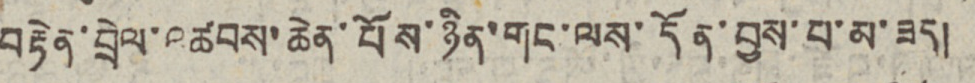བརྟེན་བྲེལ་འཚབས་ཆེན་པོས་ཉིན་གང་ལས་དོན་བྱས་པ་མ་ཟད།
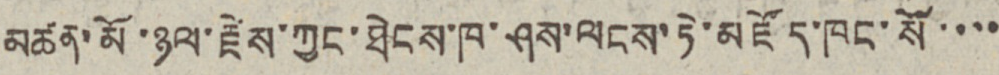མཚན་མོ་ཉལ་རྫེས་ཀྱང་ཐེངས་ཁ་ཤས་ལངས་ཏེ་མཛོད་ཁང་སོ་་་་
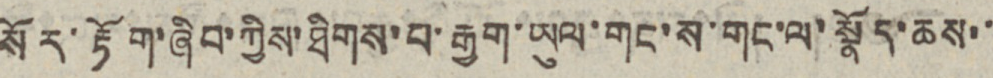སོར་རྟོག་ཞིབ་ཀྱིས་ཐིགས་བ་རྒྱག་ཡུལ་གང་ས་གང་ལ་སྣོད་ཆས་་
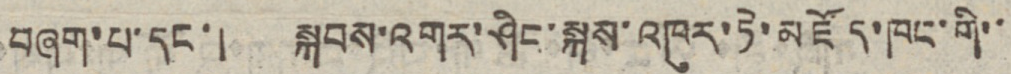བཞག་པ་དང་། སྐབས་འགར་ཤིང་སྐས་འཁུར་ཏེ་མཛོད་ཁང་གི་་
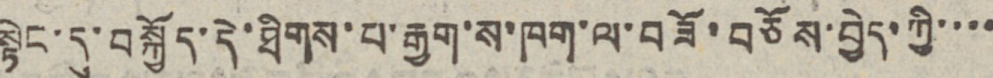སྟེང་དུ་བསྐྱོད་དེ་ཐིགས་པ་རྒྱག་ས་ཁག་ལ་བཟོ་བཅོས་བྱེད་ཀྱི་་་་
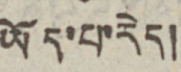ཡོད་པ་རེད།
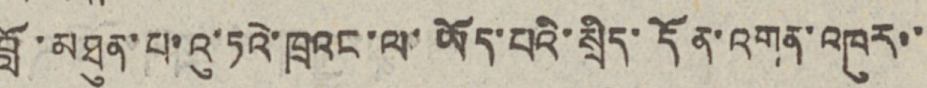བློ་མཐུན་པ་འུ་ཏའེ་ཁྲའང་ལ་ཡོད་པའི་སྲིད་དོན་འགན་འཁུར་་
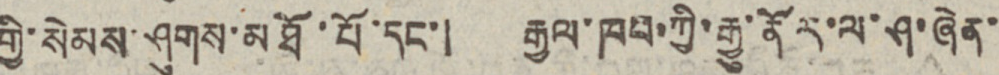གྱི་སེམས་ཤུགས་མཐོ་པོ་དང་། རྒྱལ་ཁབ་ཀྱི་རྒྱུ་ནོར་ལ་ཤ་ཞེན་
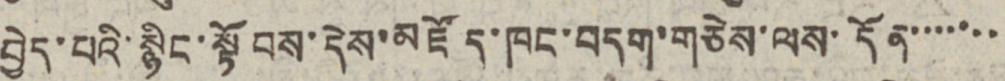བྱེད་པའི་སྙིང་སྟོབས་དེས་མཛོད་ཁང་བདག་གཅེས་ལས་དོན་་་་་་་
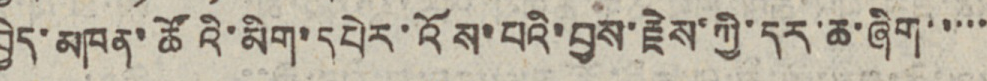བྱེད་མཁན་ཚོའི་མིག་དཔེར་འོས་པའི་བྱས་རྗེས་ཀྱི་དར་ཆ་ཞིག་་་་་
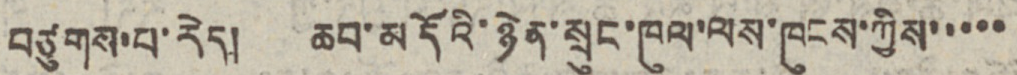བཙུགས་པ་རེད། ཆབ་མདོའི་ཉེན་སྲུང་ཁུལ་ལས་ཁུངས་ཀྱིས་་་་་
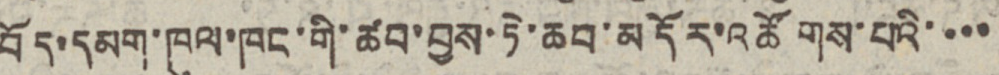བོད་དམག་ཁུལ་ཁང་གི་ཚབ་བྱས་ཏེ་ཆབ་མདོར་འཚོགས་པའི་་་་
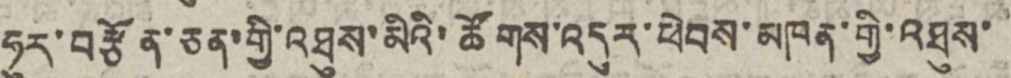ཧུར་བརྩོན་ཅན་གྱི་འཐུས་མིའི་ཚོགས་འདུར་ཕེབས་མཁན་གྱི་འཐུས་
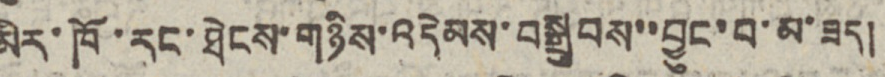མིར་ཁོ་རང་ཐེངས་གཉིས་འདེམས་བསྒྲུབས་་བྱུང་བ་མ་ཟད།
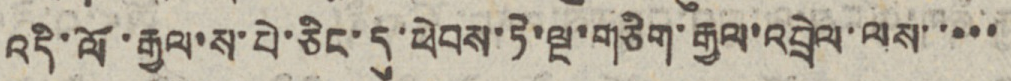འདི་ལོ་རྒྱལ་ས་པེ་ཅིང་དུ་ཕེབས་ཏེ་ལྔ་གཅིག་རྒྱལ་འབྲེལ་ལས་་་་་
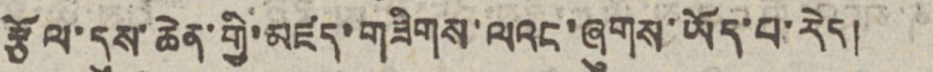རྩོལ་དུས་ཆེན་གྱི་མཛད་གཟིགས་ལའང་ཞུགས་ཡོད་པ་རེད།
